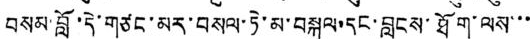བསམ་བློ་དེ་གཙང་མར་བསལ་ཏེ་མ་བསྐུལ་དང་བླངས་ཐོག་ལས་་་
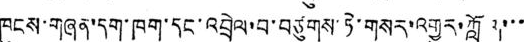ཁུངས་གཞན་དག་ཁག་དང་འབྲེལ་བ་བཙུགས་ཏེ་གསར་འགྱུར་ཀློག་་་
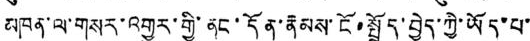མཁན་ལ་གསར་འགྱུར་གྱི་ནང་དོན་རྣམས་ངོ་སྤྲོད་བྱེད་ཀྱི་ཡོད་པ་
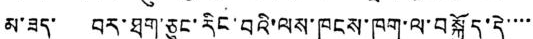མ་ཟད་ བར་ཐག་ཅུང་རིང་བའི་ལས་ཁུངས་ཁག་ལ་བསྐྱོད་དེ་་་་
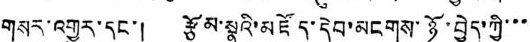གསར་འགྱུར་དང་། རྩོམ་སྣའི་མཛོད་དེབ་མངགས་ཉོ་བྱེད་ཀྱི་་་
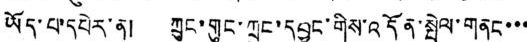ཡོད་པ་དཔེར་ན། ཀྲུང་གུང་ཀྲུང་དབྱང་གིས་འདོན་སྤེལ་གནང་་་
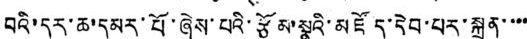བའི་དར་ཆ་དམར་པོ་ཞེས་པའི་རྩོམ་སྣའི་མཛོད་དེབ་པར་སྐྲུན་་་་
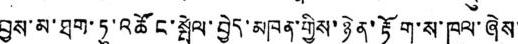བྱས་མ་ཐག་ཏུ་འཚོང་སྤེལ་བྱེད་མཁན་གྱིས་ཉེན་རྟོག་ས་ཁུལ་ཞེས་
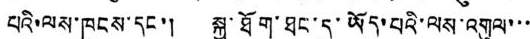པའི་ལས་ཁུངས་དང་། སྐྱ་ཐོག་ཐང་དུ་ཡོད་པའི་ལས་འགུལ་་་
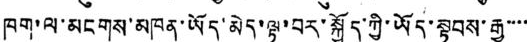ཁག་ལ་མངགས་མཁན་ཡོད་མེད་ལྟ་བར་སྐྱོད་ཀྱི་ཡོད་སྟབས་རྒྱ་་་་
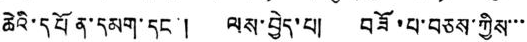ཆེའི་དཔོན་དམག་དང་། ལས་བྱེད་པ། བཟོ་པ་བཅས་ཀྱིས་་་
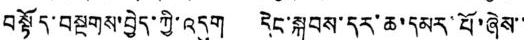བསྟོད་བསྔགས་བྱེད་ཀྱི་འདུག དེང་སྐབས་དར་ཆ་དམར་པོ་ཞེས་་
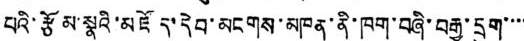པའི་རྩོམ་སྣའི་མཛོད་དེབ་མངགས་མཁན་ནི་ཁག་བཞི་བརྒྱ་དྲུག་་་་
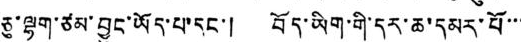ཅུ་ལྷག་ཙམ་བྱུང་ཡོད་པ་དང་། བོད་ཡིག་གི་དར་ཆ་དམར་པོ་་་
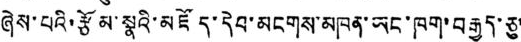ཞེས་པའི་རྩོམ་སྣའི་མཛོད་དེབ་མངགས་མཁན་ཡང་ཁག་བརྒྱད་ཅུ་
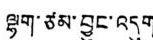ལྷག་ཙམ་བྱུང་འདུག
